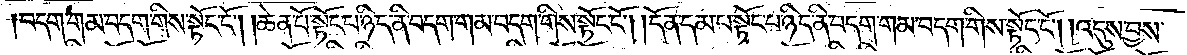བདག་གམ་བདག་གིས་སྟོང་ངོ༌། །ཆེན་པོ་སྟོང་པ་ཉིད་ནི་བདག་གམ་བདག་གིས་སྟོང་ངོ༌། །དོན་དམ་པ་སྟོང་པ་ཉིད་ནི་བདག་གམ་བདག་གིས་སྟོང་ངོ༌། །འདུས་བྱས་
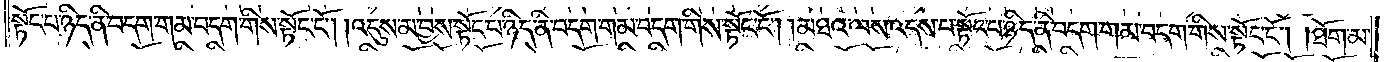སྟོང་པ་ཉིད་ནི་བདག་གམ་བདག་གིས་སྟོང་ངོ༌། །འདུས་མ་བྱས་སྟོང་པ་ཉིད་ནི་བདག་གམ་བདག་གིས་སྟོང་ངོ༌། །མཐའ་ལས་འདས་པ་སྟོང་པ་ཉིད་ནི་བདག་གམ་བདག་གིས་སྟོང་ངོ༌། །ཐོག་མ་
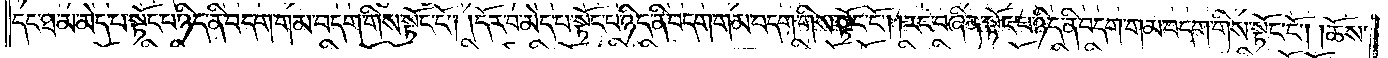དང་ཐ་མ་མེད་པ་སྟོང་པ་ཉིད་ནི་བདག་གམ་བདག་གིས་སྟོང་ངོ༌། །དོར་བ་མེད་པ་སྟོང་པ་ཉིད་ནི་བདག་གམ་བདག་གིས་སྟོང་ངོ༌། །རང་བཞིན་སྟོང་པ་ཉིད་ནི་བདག་གམ་བདག་གིས་སྟོང་ངོ༌། །ཆོས་
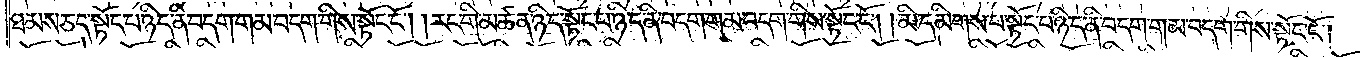ཐམས་ཅད་སྟོང་པ་ཉིད་ནི་བདག་གམ་བདག་གིས་སྟོང་ངོ༌། །རང་གི་དམིགས་པ་སྟོང་པ་ཉིད་ནི་བདག་གམ་བདག་གིས་སྟོང་ངོ༌། །མི་དམིགས་པ་སྟོང་ཉིད་ནི་བདག་གམ་བདག་གིས་སྟོང་ངོ༌།
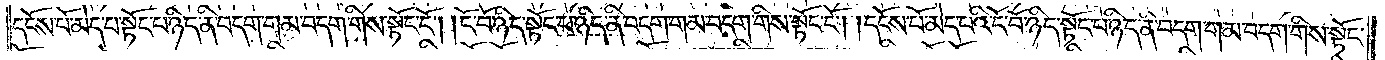དངོས་པོ་མེད་པ་སྟོང་པ་ཉིད་ནི་བདག་གམ་བདག་གིས་སྟོང་ངོ༌། །ངོ་བོ་ཉིད་སྟོང་པ་ཉིད་ནི་བདག་གམ་བདག་གིས་སྟོང་ངོ༌། །དངོས་པོ་མེད་པའི་ངོ་བོ་ཉིད་སྟོང་པ་ཉིད་ནི་བདག་གམ་བདག་གིས་སྟོང་
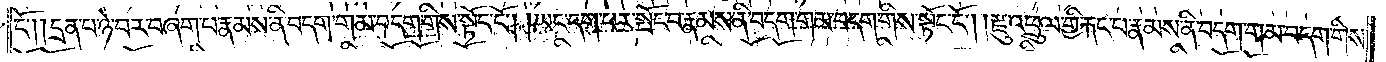ངོ༌། །དྲན་པ་ཉེ་བར་བཞག་པ་རྣམས་ནི་བདག་གམ་བདག་གིས་སྟོང་ངོ༌། །ཡང་དག་པར་སྤོང་བ་རྣམས་ནི་བདག་གམ་བདག་གིས་སྟོང་ངོ༌། །རྫུ་འཕྲུལ་གྱི་རྐང་པ་རྣམས་ནི་བདག་གམ་བདག་གིས་
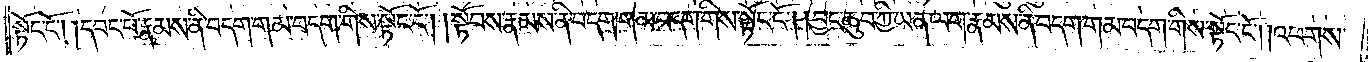སྟོང་ངོ༌། །དབང་པོ་རྣམས་ནི་བདག་གམ་བདག་གིས་སྟོང་ངོ༌། །སྟོབས་རྣམས་ནི་བདག་གམ་བདག་གིས་སྟོང་ངོ༌། །བྱང་ཆུབ་ཀྱི་ཡན་ལག་རྣམས་ནི་བདག་གམ་བདག་གིས་སྟོང་ངོ༌། །འཕགས་
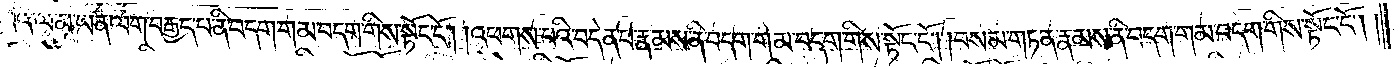པའི་ལམ་ཡན་ལག་བརྒྱད་པ་ནི་བདག་གམ་བདག་གིས་སྟོང་ངོ༌། །འཕགས་པའི་བདེན་པ་རྣམས་ནི་བདག་གམ་བདག་གིས་སྟོང་ངོ༌། །བསམ་གཏན་རྣམས་ནི་བདག་གམ་བདག་གིས་སྟོང་ངོ༌། །
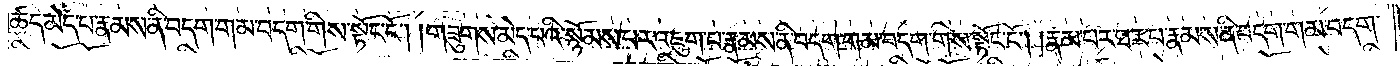ཚད་མེད་པ་རྣམས་ནི་བདག་གམ་བདག་གིས་སྟོང་ངོ༌། །གཟུགས་མེད་པའི་སྙོམས་པར་འཇུག་པ་རྣམས་ནི་བདག་གམ་བདག་གིས་སྟོང་ངོ༌། །རྣམ་པར་ཐར་པ་རྣམས་ནི་བདག་གམ་བདག་
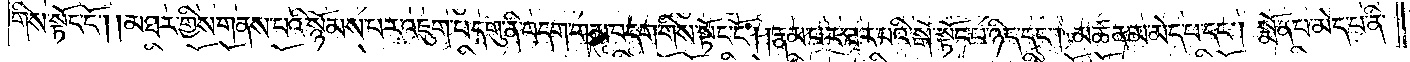གིས་སྟོང་ངོ༌། །མཐར་གྱིས་གནས་པའི་སྙོམས་པར་འཇུག་པ་དགུ་ནི་བདག་གམ་བདག་གིས་སྟོང་ངོ༌། །རྣམ་པར་ཐར་པའི་སྒོ་སྟོང་པ་ཉིད་དང༌། མཚན་མ་མེད་པ་དང༌། སྨོན་པ་མེད་པ་ནི་
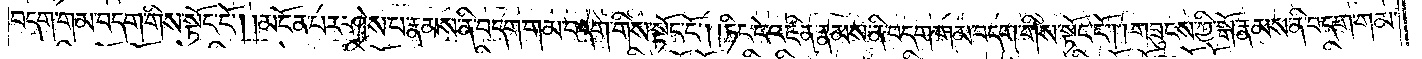བདག་གམ་བདག་གིས་སྟོང་ངོ༌། །མངོན་པར་ཤེས་པ་རྣམས་ནི་བདག་གམ་བདག་གིས་སྟོང་ངོ༌། །ཏིང་ངེ་འཛིན་རྣམས་ནི་བདག་གམ་བདག་གིས་སྟོང་ངོ༌། །གཟུངས་ཀྱི་སྒོ་རྣམས་ནི་བདག་གམ་
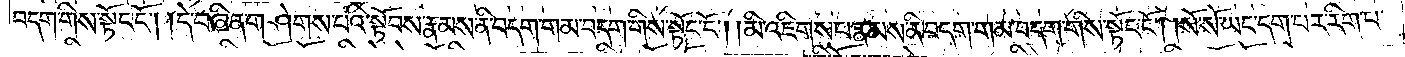བདག་གིས་སྟོང་ངོ༌། །དེ་བཞིན་གཤེགས་པའི་སྟོབས་རྣམས་ནི་བདག་གམ་བདག་གིས་སྟོང་ངོ༌། །མི་འཇིགས་པ་རྣམས་ནི་བདག་གམ་བདག་གིས་སྟོང་ངོ༌། །སོ་སོ་ཡང་དག་པར་རིག་པ་
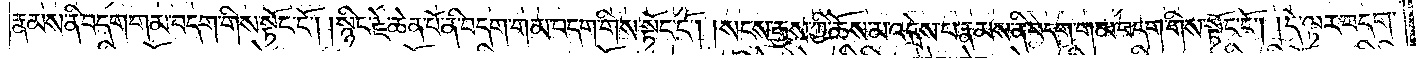རྣམས་ནི་བདག་གམ་བདག་གིས་སྟོང་ངོ༌། །སྙིང་རྗེ་ཆེན་པོ་ནི་བདག་གམ་བདག་གིས་སྟོང་ངོ༌། །སངས་རྒྱས་ཀྱི་ཆོས་མ་འདྲེས་པ་རྣམས་ནི་བདག་གམ་བདག་གིས་སྟོང་ངོ༌། །དེ་ལྟར་བདག་
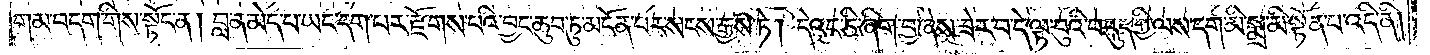གམ་བདག་གིས་སྟོང་ན། བླ་ན་མེད་པ་ཡང་དག་པར་རྫོགས་པའི་བྱང་ཆུབ་ཏུ་མངོན་པར་སངས་རྒྱས་ཏེ། དེའང་ཅི་ཞིག་བྱ་ཞེས་ཟེར་བ་དེ་ལྟ་བུའི་བདུད་ཀྱི་ལས་དག་མི་སྨྲ་མི་སྟོན་པ་འདི་ནི།
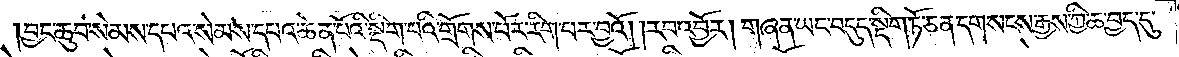བྱང་ཆུབ་སེམས་དཔའ་སེམས་དཔའ་ཆེན་པོའི་སྡིག་པའི་གྲོགས་པོར་རིག་པར་བྱའོ། །རབ་འབྱོར། གཞན་ཡང་བདུད་སྡིག་ཏོ་ཅན་དག་སངས་རྒྱས་ཀྱི་ཆ་བྱད་དུ་
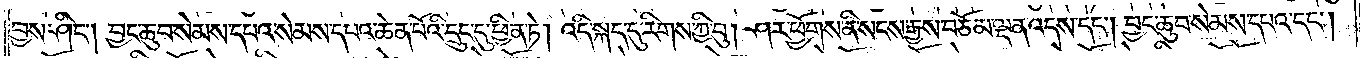བྱས་ཤིང༌། བྱང་ཆུབ་སེམས་དཔའ་སེམས་དཔའ་ཆེན་པོའི་དྲུང་དུ་ཕྱིན་ཏེ། འདི་སྐད་དུ་རིགས་ཀྱི་བུ། ཤར་ཕྱོགས་ནི་སངས་རྒྱས་བཅོམ་ལྡན་འདས་དང༌། བྱང་ཆུབ་སེམས་དཔའ་དང༌།
